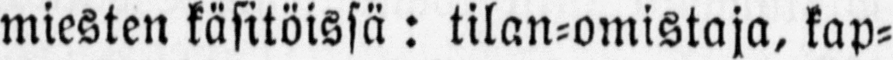miesten käsitöissä : tilan-omistaja, kap-
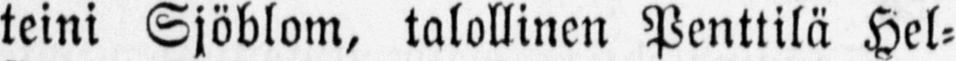teini Sjöblom, talollinen Penttilä Hel-
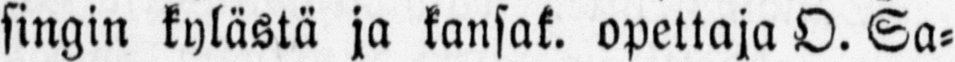singin kylästä ja kansat, opettaja O. Sa-
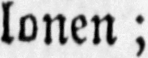lonen ;
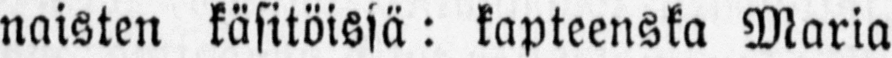naisten käsitöissä: kapteenska Maria
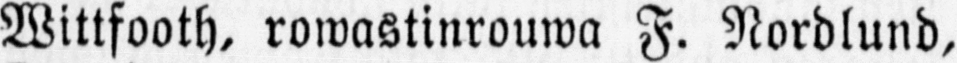Wittfooth, rowastinrouwa F. Nordlund,
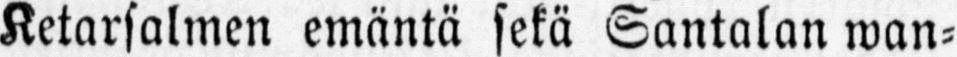Ketarsalmen emäntä sekä Santalan wan-
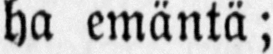ha emäntä;
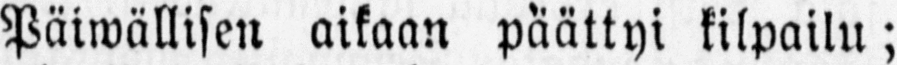Päiwällisen aikaan päättyi kilpailu;
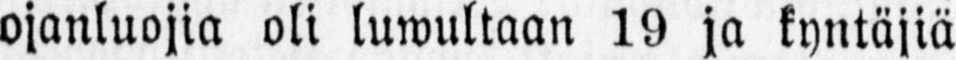ojanluojia oli luwultaan 19 ja kyntäjiä
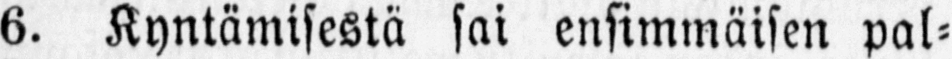6. Kyntämisestä sai ensimmäisen pal-
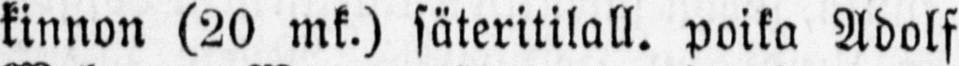kinnon (20 mk.) säteritilall. poika Adolf
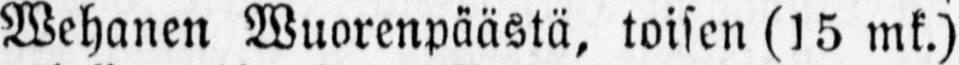Wehanen Wuorenpäästä, toisen (15 mk.)
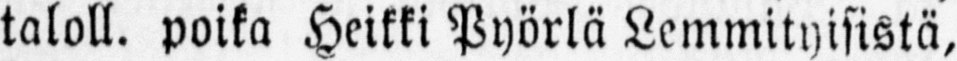taloll. poika Heikki Pyörlä Lemmityisistä,
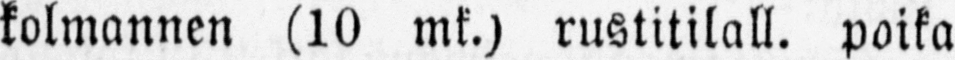kolmannen (10 mk.) rustitilall. poika
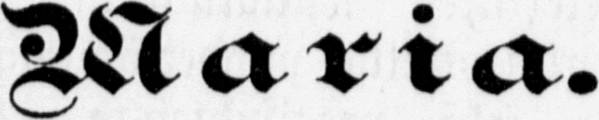Maria.
